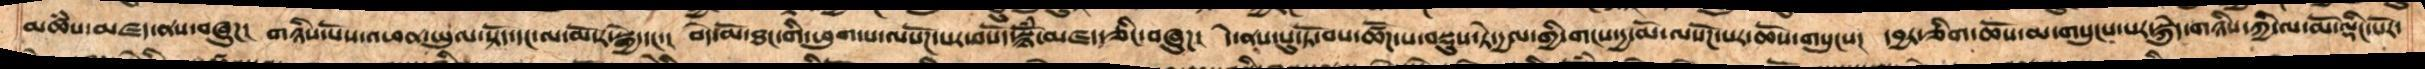མཚཾས་མཛད་ནས་བཞུཌ།  གཉིས་པོས་འཕན་ཡུལ་སྟོད་དང་ལ་མོ་ར་སྒྱེ་དང་།  བདེ་མོ་ཐང་གི་ཕུག་པ་ལསོཌ་པར་བསོད་སྙོཾ་མཛད་ཅིང་བཞུཌ།  དེ་ནས་པུ་ཏོ་བས་ཚོཌ་པ་བསྡུས་ཏེ་དྱལ་གྱི་གངས་དྱ་མོ་ལསོཌ་པར་ཆོས་གསུངས།  དབྱར་ཅིག་ཆོས་མ་གསུངས་པར་སྐེུད་གཉིས་ཀྱི་ལ་མོ་སྡིང་པོར་
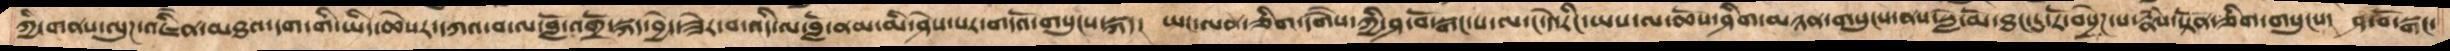ཀྱི་གནས་ལུཌ་འཇིེན་མཐའ་དག་གི་ཡིད་ཆེསར་དཀའ་བ་ལ་བློ་འགྲོ་སྐད་བྱེད་ཟེར་བ་འདི་ལ་བློ་ནམ་མི་ཤེས་པར་གདའོ་གསུངས་སྐད།  ཡང་ལན་ཅིག་དགཻས་ཀྱི་ཤ་བོ་སྒང་པ་ལ་ང་དེ་རིང་ཡས་ལ་ཆོས་ཤིག་མཉན་གསུངས་ནས་སླེ་མོ་ཐང་དུ་རོ་བསྲེཌ་པ་རྣཾས་སྟོན་ཅིག་གསུངས།  ཤ་བོ་སྒང་
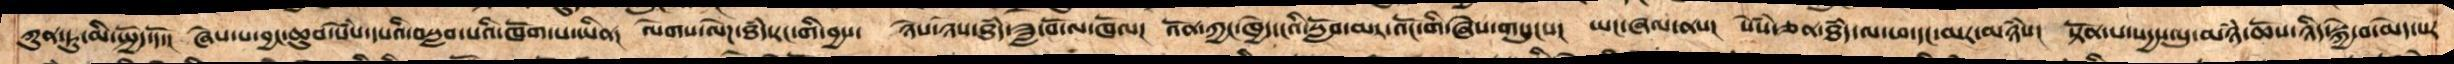ཀུན་ཏུ་མི་སྤྱོད་དོ་།  ཞེས་པ་བྱང་ཆུབ་སེཾས་དཔའི་བསླབ་པའི་ཁོག་པ་ཡིན།  ལེགས་ལེཌ་ཐཾད་རང་གི་བྱས་  ཉེས་ཉེས་ཐཾད་ཟླ་བོ་ལ་ཁོལ།  འོན་ཀྱང་ཁྱེད་ངའི་སློབ་མར་འོང་གི་ཞེས་གསུངས།  ཡང་ཞལ་ནས། སེཾས་ཅན་ཐཾད་ལ་ཕ་དང་མར་མཉཾས།  སྟོན་པ་སདྱས་སུ་མཉཾ་ཆོས་ཉིད་སྐྱེ་བ་མེད་པར་
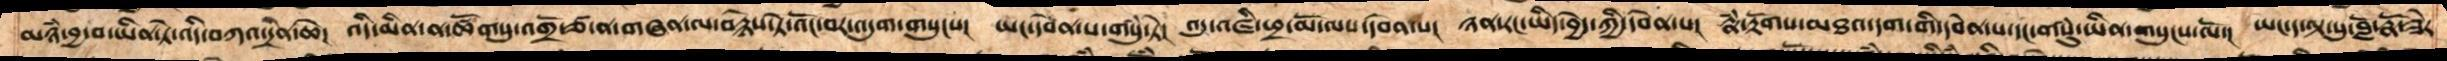མཉཾ་བྱ་བ་ཡིན་ཏེ་འདི་བཀའ་དྲིན་ཆེ།  འདི་མིན་ན་ཚོགསུ་འགྲོ་ཙ་ན་གཞན་ལ་བསྙེས་ཏེ་འོང་བར་འདུག་གསུངས།  ཡང་དབེན་པ་གསུཾ་ཏེ།  འདུ་འཛི་ཕྲ་མོ་ལས་དབེན་པ།  ཉན་རང་ཡིད་བྱེད་ཀྱི་དབེན་པ།  རྣཾ་རྟོགས་མཐའ་དག་གི་དབེན་པ་དང་གསུཾ་ཡིན་གསུངས་ལོ་།  ཡང་ད་ལྟར་སུ་བློ་རྣོ་ཟེར
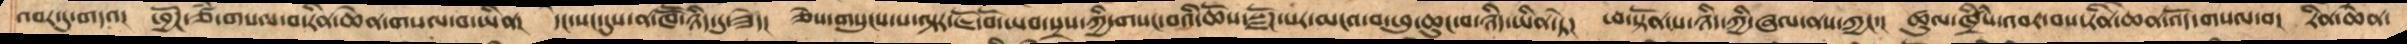འབར་དུ་གདའ།  ཕྱོཌ་ཙཾ་གསལ་བ་རིན་ཆེན་གསལ་བཡིན།  དེང་སང་དུས་ནས་ཁཽ་ཉིད་དུ་ཟེད།  ཅེས་གསུངས་པ་ལྟར་ཇོ་བོ་ཡབ་སྲས་ཀྱི་གསང་བའི་ཆོས་སྫོཌ་པར་མངའ་བ་ཕུ་ཆུང་བ་ཉིད་ཡིན་ཏེ།  ཕ་སྟོན་པ་ཉིད་ཀྱི་ཞལ་ནས་ཀྱང་།  ཚུལ་ཁྲིཾས་འབར་བས་རིན་ཆེན་འོད་གསལ་བ།  རིན་ཆེན་
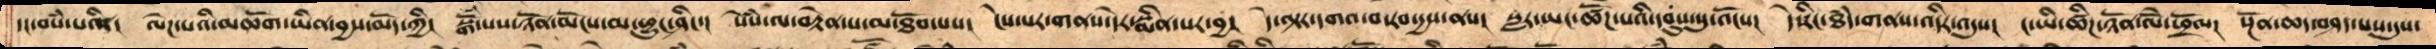དང་བསཾ་པ་ནི།  ལེཌ་པའི་མཆོག་ཡིན་བྱས་མོད་ཀྱི།  སྒོཾ་པས་ཉོན་མོངས་མ་ཕྱུང་ཞིང་།  སེཾས་ལ་བརྟེན་པ་མ་ཐོབ་པས།  ངེས་པར་གནས་དེར་སྨིན་པར་བྱ།  དེ་ལྟར་དགའ་བ་རབ་དྱས་ནས།  སླར་ཡང་ཚོཌ་པའི་དབུས་སུ་འོངས།  དེ་རིང་ཐཾད་གནས་འདིར་འདུས།  ང་ཡི་ཚིཌ་ཉོན་ལེོ་ཕྲོལ།  སྔོན་ཆད་བཤད་པས་དུས་
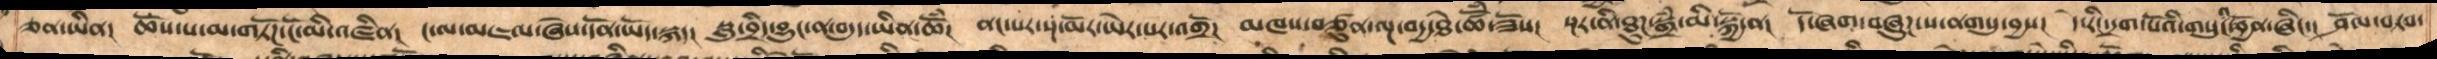ཅན་ཡིན།  ཆོས་པ་མ་གཏོཌ་ངོ་མི་འཛིན།  ང་ལ་མཇལ་ཞེས་དོན་ཡོད་སྐད།  སླུ་བྲིད་བྱུང་ན་བདུད་ཡིན་ཆོཾ།  ནང་པར་སྔ་མོར་ཡེར་པར་འགྲོ།  མཁས་བཙུན་ལྔ་བདྱ་ཐེ་ཚོཾ་ཟོས།  སྔར་ནི་ཐུཌ་སྒྲཾ་མི་སྐྱོ་ན།  དོ་ཞག་བཞུཌ་པ་ནགསུ་བྱས།  དེ་རིང་དྲག་པོའི་གསུང་འབྱོན་ཞིང་།  ཤོལ་བཏབ་
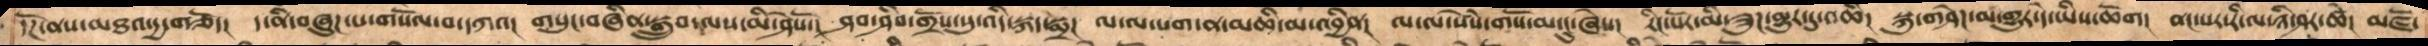དོཌ་ནས་མཐའ་དྱ་གཅོད།  ད་ནི་བཞུཌ་པ་གསོལ་བ་དཀའ།  གསུང་བཞིན་སྒྲུབ་ལས་མི་ཤེསོ་། ཤབ་ཤིབ་གྲོས་སུ་འདི་སྐད་སྨྲ།  ལ་ལ་པག་ན་མཆི་མ་འབྱིན།  ལ་ལ་སེཾས་གསོ་མ་ངུ་ཞེས་།  རིང་པོར་མི་ཟུཌ་མྱུར་དུ་འཆི།  སྐུ་གཤེཌ་མ་གྱུར་དེ་ཡིས་ཆོག  ནང་པར་རི་ལ་ཉི་ཤར་ཚེ།  མཛོ་
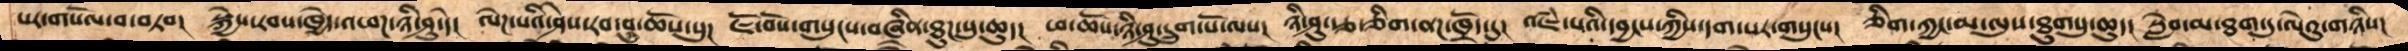པར་གསོལ་བ་བཏབ།  སྐྱེས་རབས་ཁྱེད་འཕཌ་ཉི་ཤུ་དེ།  ལེཌ་པའི་ཤེས་རབ་བུ་ཆོས་སུ།  ཇོ་བོས་གསུངས་བཞིན་ཐུཌ་སུ་ཆུད།  ཕ་ཆོས་ཉི་ཤུ་དྲུག་པོ་ལས།  ཉི་ཤུ་རྩ་ཅིག་ནཌ་ཁྲོད་དུ།  འཇཾ་པའི་དབྱངས་ཀྱིས་དག་པར་གསུངས།  ཅིག་ཀྱང་མ་ལུས་ཐུགསུ་ཆུད།  སླེབ་མ་ཐག་དུ་ལེའུ་གཉིས།
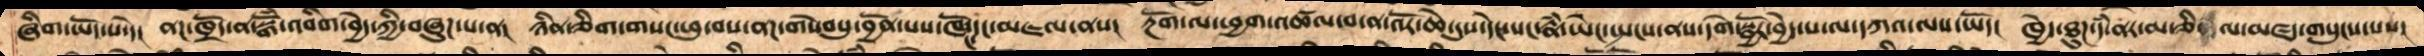ཞིག་ཡོད་པ་དེ།  ནཌ་ཁྲོད་ན་སྒོཾ་འབིག་བྱེད་ཀྱིན་བཞུཌ་པ་ན།  ཉིན་ཅིག་གསང་ཕུ་བས་ནཌ་གསེབསུ་བྱོན་པས་ཁོང་དང་མཇལ་ནས།  རྔོག་ལ་ཕྱག་འཚལ་བ་ན་འོར་ཆེ་དུས་དེང་སང་རྣཾ་ཡེང་སྤངས་ནས་དགེ་སྦྱོར་བྱེད་པ་ལ་དཀའ་ལས་ཡོད།  ཁྱེད་ཐུཌ་དཾ་ནར་མ་ཅི་ལ་མཛད་གསུངས་པས།
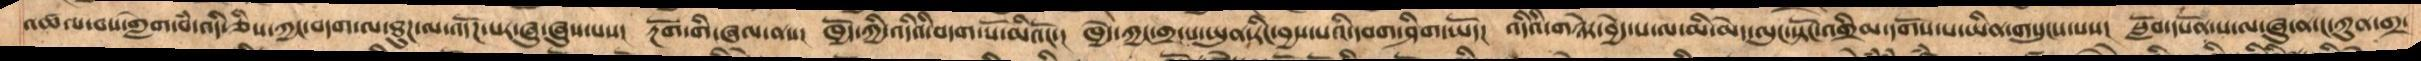འཚལ་བས་གླེག་བཾ་འདི་ཅིས་ཀྱང་བདག་ལ་ཐུཌ་ལ་འདོཌ་པར་ཞུ་ཞུས་པས།  རྔོག་གི་ཞལ་ནས།  ཁྱོད་ཀྱི་འདིའི་བདག་པོ་མིའོང་།  ཁྱེད་ཀྱང་གྲ་ས་ཡུན་རིང་བྱས་པའི་དབག་ཤིག་ཡོད།  འདིའི་གཉེར་བྱེད་པ་ལ་མི་མེད་ལུང་སྟོང་འགྲིམ་དགོས་པ་ཡིན་གསུངས་པས།   སློབ་དཔོན་ས་ལ་ཞུ་ན་ང་ཀུན་གྲ་
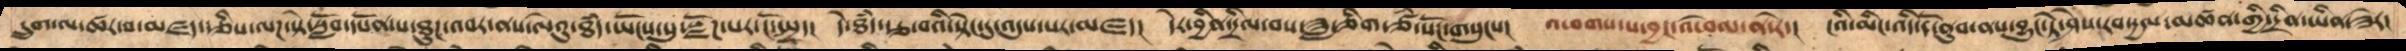དྲུག་ལ་ཚར་བ་མཛད་རྩིས་ལཌ་སྟེ་སློབ་དཔོན་པ་ཐུཌ་འབར་ནས་ལེའུ་ཐཾད་ཡོངསུ་སྫོཌ་པར་ངོ་སྤྲད།  དེ་ཐཾད་རྩ་བའི་སྟེང་དུ་འདུས་པར་མཛད།  དེར་བྱིན་དྲིལ་བས་ཟླ་ཅིག་ཙཾ་སོང་གསུངས།  འཕགས་པ་བྱང་འཕེལ་ན་རེ།  ངའི་མིང་འདི་དོ་ནུབ་ནས་བྱུང་ཏེ་ཤེས་རབ་དྱལ་མཚན་གྱི་དྲིན་ཡིན་ཟེར།
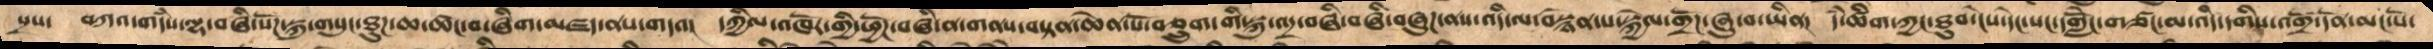སྲས།  བཀའ་གདཾས་ལྷ་བཞི་སོཌ་སྐུ་གསུང་ཐུཌ་ཆ་ཚང་བ་ཞིག་མཛད་ནས་གདའ།  དཀྱིལ་འཁོར་གྱི་ཕྱོཌ་བཞི་ན་གནས་བསྟན་ཆེན་པོ་བཅྲུག་གི་སྐུ་འདྲ་བཞི་བཞི་བཞུཌ་ནས་འདི་ལ་བསྙེན་པ་སྐྱེལ་གྲོཌ་ཞུ་བ་ཡིན།  དཾ་ཚིག་ཀྱང་ཐུབ་ངེས་དེང་སང་དགླེོང་གཙང་མ་འདི་དགིས་འགྲོ་དོན་མང་པོ་
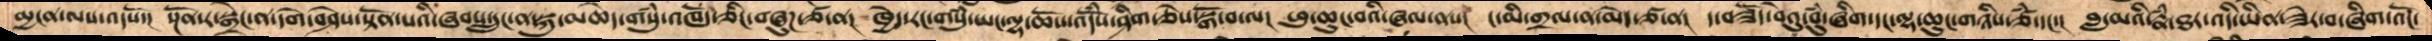མྱངན་ལས་འདསོ།  སྔོན་ར་སྒྲེང་ན་དགེ་བཤེས་སྟོན་པའི་ཞབས་དྲུང་ན་སྐུ་མཆེད་གསུཾ་འཁོད་ཅིང་བཞུཌ་ཙ་ན།  ཁྱེད་རང་གསུཾ་ཡང་ལྷ་ཆོས་འདོཾས་ཤིག་ཅེས་སྒོ་བ་ལ།  ཕུ་ཆུང་བའི་ཞལ་ནས།  ང་མི་གྲལ་ན་མེད་ཙ་ན། ད་གཟོད་བེའུ་བུཾ་ཞིག་དང་ལྷ་ཆུང་གཉིས་ཙཾ་དང་།  བླ་མའི་རྣཾ་ཐར་འདི་ཡིན་ཟེར་བ་ཞིག་འོང་
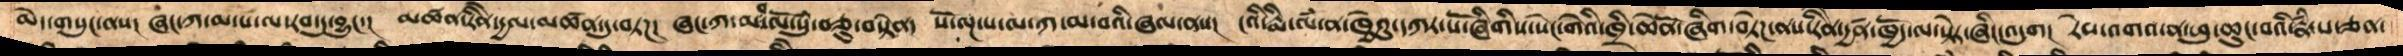མེད་གསུང་ནས།  ཞང་ཀ་མ་པ་ལ་རབ་ཏུ་བྱུང་།  མཚན་རིེན་དྱལ་མཚན་དུ་བཏཌ།  ཞང་ཀ་མ་ལོ་སུཾ་བཅུ་བསྟེན།  སོ་ལྔ་པ་ལ་ཀ་མ་བའི་ཞལ་ནས།  ངའི་རྨི་ལཾ་ན་ཁྱེའུ་དཀར་པོ་ཞིགིས་སེང་གེའི་ཁྲི་ཆེོན་ཞིག་བཏེཌ་ནས་རིེན་དྱཚན་ཁྱོད་ལ་སྟེར་ཞིང་འདུག།  རེས་འགའ་ན་ཕུ་ཆུང་བའི་རྣཾ་པ་ཅན་
